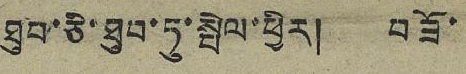ཐུབ་ཅི་ཐུབ་ཏུ་སྤེལ་ཕྱིར། བཟོ་
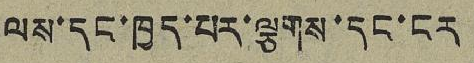ལས་དང་ཁྱད་པར་ལྕགས་དང་ངར
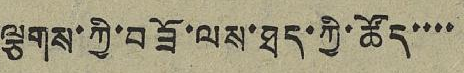ལྕགས་ཀྱི་བཟོ་ལས་ཐད་ཀྱི་ཚོད་་་་
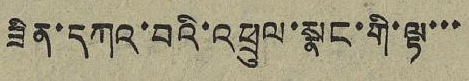ཟིན་དཀའ་བའི་འཕྲུལ་སྣང་གི་ལྟ་་་
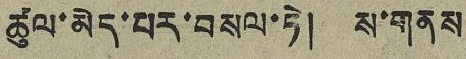ཚུལ་མེད་པར་བསལ་ཏེ། ས་གནས
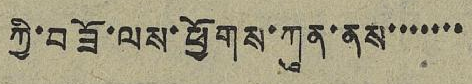ཀྱི་བཟོ་ལས་ཕྱོགས་ཀུན་ནས་་་་་་་
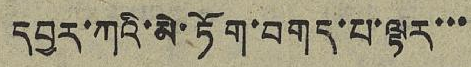དབྱར་ཀའི་མེ་ཏོག་བགད་པ་ལྟར་་་
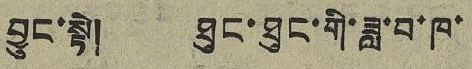བྱུང་སྟེ། ཐུང་ཐུང་གི་ཟླ་བ་ཁ་
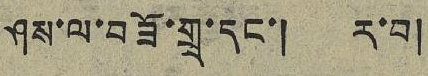ཤས་ལ་བཟོ་གྲྭ་དང་། ར་བ།
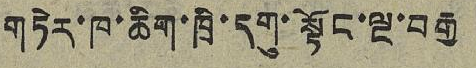གཏེར་ཁ་ཆིག་ཁྲི་དགུ་སྟོང་ལྔ་བརྒྱ
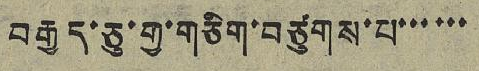བརྒྱད་ཅུ་གྱ་གཅིག་བཙུགས་པ་་་་་་
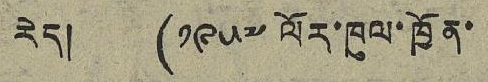རེ། (༡༩༥༧ ལོར་ཁུལ་ཁྱོན་
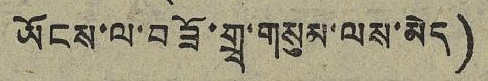ཡོངས་ལ་བཟོ་གྲྭ་གསུམ་ལས་མེད་)
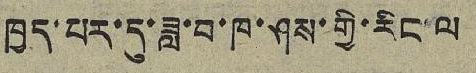ཁྱད་པར་དུ་ཟླ་བ་ཁ་ཤས་གྱི་རིང་ལ
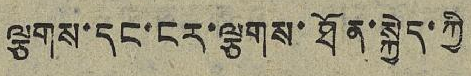ལྕགས་དང་ངར་ལྕགས་ཐོན་སྐྱེད་ཀྱི
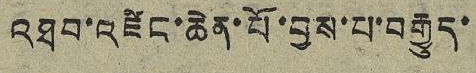འཐབ་འཛིང་ཆེན་པོ་བྱས་པ་བརྒྱུད་
